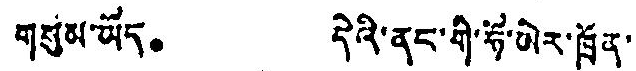གསུམ་ཡོད。 དེའི་ནང་གི་ཧོ་ཨེར་ཁྲོན་
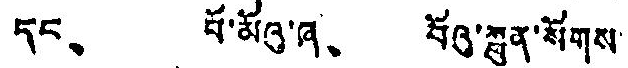དང、 པོ་མོའུ་ཞ、 བོའུ་སྐྲུན་སོགས་
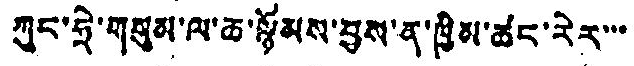ཀུང་ཧྲེ་གསུམ་ལ་ཆ་སྙོམས་བྱས་ན་ཁྱིམ་ཚང་རེར་་་
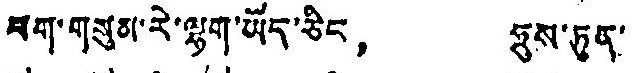ཕག་གསུམ་རེ་ལྷག་ཡོད་ཅིང、 ཧྲུས་ཏུན་
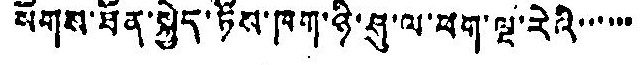སོགས་ཐོན་སྐྱེད་ཏོས་ཁག་ཉི་ཤུ་ལ་ཕག་ལྔ་རེའི་་་་་་
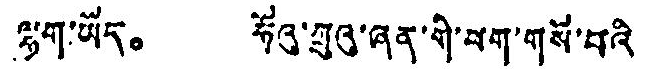ལྷག་ཡོད。 ཧོའུ་ཀྲུའུ་ཞན་གི་ཕག་གསོ་བའི་
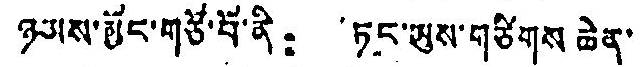ཉམས་མྱོང་གཙོ་བོ་ནི： ཏང་ཡུས་གཙིགས ཆེན་
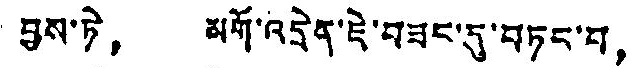བྱས་ཏེ， མགོ་འདྲེན་ཇེ་བཟང་དུ་བཏང་བ，
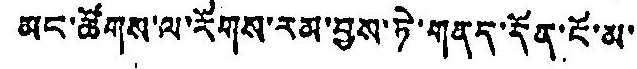མང་ཚོགས་ལ་རོགས་རམ་བྱས་ཏེ་གནད་དོན་ངོ་མ་
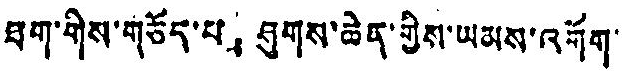ཐག་གིས་གཅོད་པ，ཤུགས་ཆེན་གྱིས་ཡམས་འགོག་
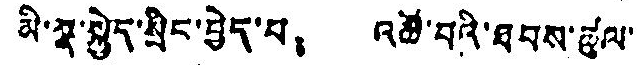མི་སྣ་སྐྱེད་སྲིང་བྱེད་པ： འཚོ་བའི་ཐབས་ཚུལ་
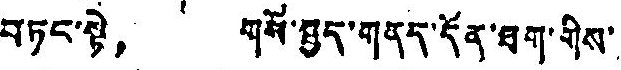བཏང་སྟེ， གསོ་སྦྱད་གནད་དོན་ཐག་གིས་
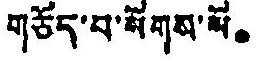གཅོད་པ་སོགས་སོ。
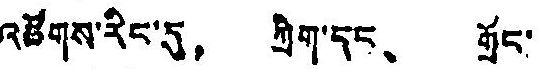འཚོགས་རིང་དུ、 ཀྲིག་དང、 གྲོང་
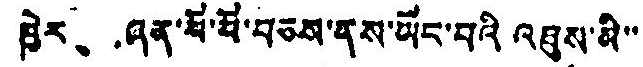ཁྱེར、 ཞན་སོ་བོ་བཅས་ནས་ཡོང་བའི འཐུས་མི་་
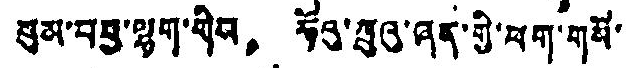སུམ་བབྱུ་ལྷག་གིས， ཧོའུ་ཀྲུའུ་ཞན་གྱི་ཕག་གསོ་
